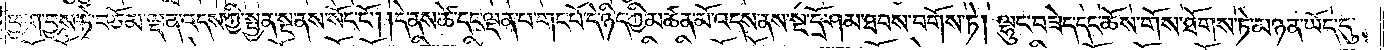ཕྱག་བྱས་ཏེ་བཅོམ་ལྡན་འདས་ཀྱི་སྤྱན་སྔ་ནས་སོང་ངོ༌། །དེ་ནས་ཚེ་དང་ལྡན་པ་གང་པོ་དེ་ཉིད་ཀྱི་མཚན་མོ་འདས་ནས་སྔ་དྲོ་ཤམ་ཐབས་བགོས་ཏེ། ལྷུང་བཟེད་དང་ཆོས་གོས་ཐོགས་ཏེ་མཉན་ཡོད་དུ་
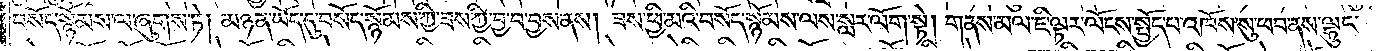བསོད་སྙོམས་ལ་ཞུགས་ཏེ། མཉན་ཡོད་དུ་བསོད་སྙོམས་ཀྱི་ཟས་ཀྱི་བྱ་བ་བྱས་ནས། ཟས་ཕྱི་མའི་བསོད་སྙོམས་ལས་སླར་ལོག་སྟེ། གནས་མལ་ཇི་ལྟར་ལོངས་སྤྱོད་པ་འཁོས་སུ་ཕབ་ནས་ལྷུང་
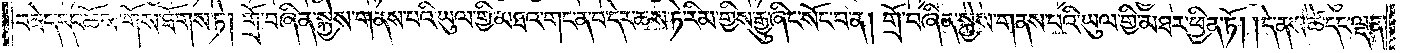བཟེད་དང་ཆོས་གོས་ཐོགས་ཏེ། གྲོ་བཞིན་སྐྱེས་གནས་པའི་ཡུལ་གྱི་མཐའ་གང་ན་བ་དེར་ཆས་ཏེ་རིམ་གྱིས་རྒྱུ་ཞིང་སོང་བ་ན། གྲོ་བཞིན་སྐྱེས་གནས་པའི་ཡུལ་གྱི་མཐར་ཕྱིན་ཏོ། དེ་ནས་ཚེ་དང་ལྡན་
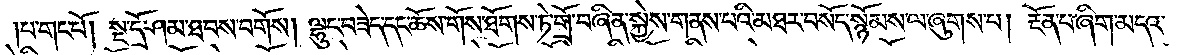པ་གང་པོ། སྔ་དྲོ་ཤམ་ཐབས་བགོས། ལྷུང་བཟེད་དང་ཆོས་གོས་ཐོགས་ཏེ་གྲོ་བཞིན་སྐྱེས་གནས་པའི་མཐར་བསོད་སྙོམས་ལ་ཞུགས་པ། རྔོན་པ་ཞིག་མདའ་
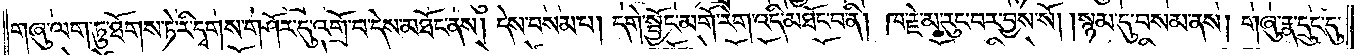གཞུ་ལག་ཏུ་ཐོགས་ཏེ་རི་དྭགས་གཤོར་དུ་འགྲོ་བ་དེས་མཐོང་ནས། དེས་བསམ་པ། དགེ་སྦྱོང་མགོ་རེག་འདི་མཐོང་བ་ནི། ཁ་རྗེ་མ་རུང་བར་བྱས་སོ། །སྙམ་དུ་བསམ་ནས། གཞུ་རྣ་དྲུང་དུ་
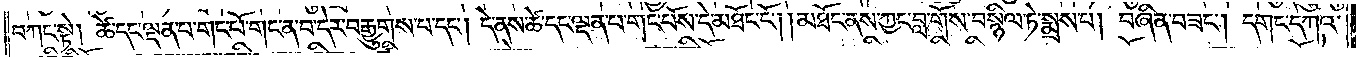བཀང་སྟེ། ཚེ་དང་ལྡན་པ་གང་པོ་གང་ན་བ་དེར་བརྒྱུགས་པ་དང༌། དེ་ནས་ཚེ་དང་ལྡན་པ་གང་པོས་དེ་མཐོང་ངོ༌། །མཐོང་ནས་ཀྱང་བླ་གོས་བསྙིལ་ཏེ་སྨྲས་པ། བཞིན་བཟང༌། དགང་དཀའ་
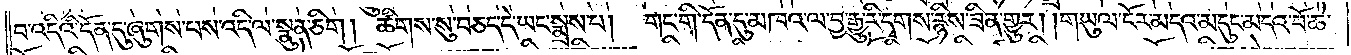བ་འདིའི་དོན་དུ་ཞུགས་པས་འདི་ལ་སྣུན་ཅིག །ཚིགས་སུ་བཅད་དེ་ཡང་སྨྲས་པ།   གང་གི་དོན་དུ་མཁའ་ལ་བྱ་རྒྱུ་རི་དྭགས་རྙིས་ཟིན་གྱུར། །གཡུལ་ངོར་མདའ་མདུང་མདའ་བོ་ཆེ་
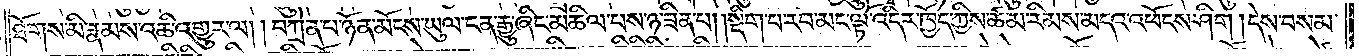ཐོགས་མི་རྣམས་འཆི་འགྱུར་ལ། །བཀྲེན་པ་ཉོན་མོངས་ཡུལ་ངན་རྒྱུ་ཞིང་མཆིལ་པས་ཉ་ཟིན་པ། །སྡིག་པ་རབ་མང་ལྟོ་འདིར་ཁྱོད་ཀྱིས་ཚམ་རིམས་མདའ་འཕོངས་ཤིག །དེས་བསམ་
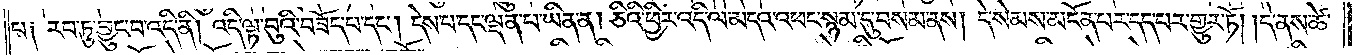པ༑ རབ་ཏུ་བྱུང་བ་འདི་ནི། འདི་ལྟ་བུའི་བཟོད་པ་དང༌། དེས་པ་དང་ལྡན་པ་ཡིན་ནོ། །ཅིའི་ཕྱིར་འདི་ལ་མདའ་འཕང་སྙམ་དུ་བསམ་ནས། དེ་སེམས་མངོན་པར་དད་པར་གྱུར་ཏེ། །དེ་ནས་ཚེ་
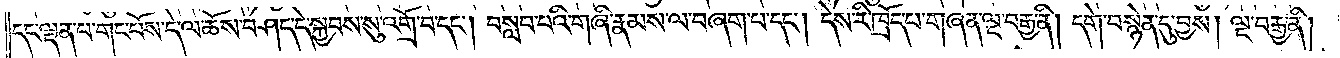དང་ལྡན་པ་གང་པོས་དེ་ལ་ཆོས་བཤད་དེ་སྐྱབས་སུ་འགྲོ་བ་དང༌། བསླབ་པའི་གཞི་རྣམས་ལ་བཞག་པ་དང༌། དེས་རི་ཁྲོད་པ་གཞན་ལྔ་བརྒྱ་ནི། དགེ་བསྙེན་དུ་བྱས། ལྔ་བརྒྱ་ནི།
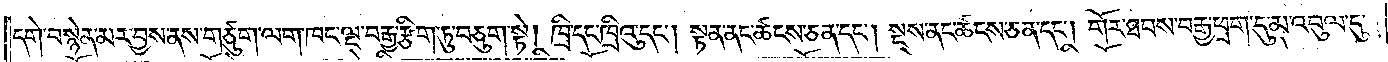དགེ་བསྙེན་མར་བྱས་ནས་གཙུག་ལག་ཁང་ལྔ་བརྒྱ་རྩིག་ཏུ་བཅུག་སྟེ། ཁྲི་དང་ཁྲིའུ་དང༌། སྟན་ནང་ཚངས་ཅན་དང༌། སྔས་ནང་ཚངས་ཅན་དང༌། གོར་ཐབས་བརྒྱ་ཕྲག་དུ་མ་འབུལ་དུ་
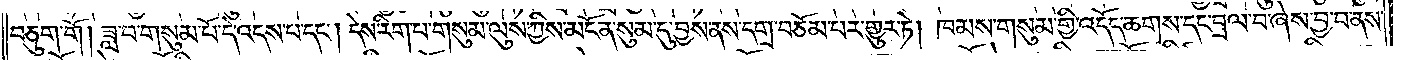བཅུག་གོ །ཟླ་བ་གསུམ་པོ་དེ་འདས་པ་དང༌། དེས་རིག་པ་གསུམ་ལུས་ཀྱིས་མངོན་སུམ་དུ་བྱས་ནས་དགྲ་བཅོམ་པར་གྱུར་ཏེ། ཁམས་གསུམ་གྱི་འདོད་ཆགས་དང་བྲལ་བ་ཞེས་བྱ་བ་ནས་
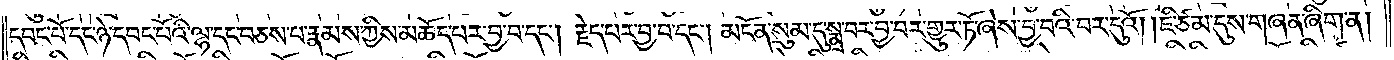དབང་པོ་དང་ཉེ་དབང་པོའི་ལྷ་དང་བཅས་པ་རྣམས་ཀྱིས་མཆོད་པར་བྱ་བ་དང༌། རྗེད་པར་བྱ་བ་དང༌། མངོན་སུམ་དུ་སྨྲ་བར་བྱ་བར་གྱུར་ཏོ་ཞེས་བྱ་བའི་བར་དུའོ། །ཇི་ཙམ་དུས་གཞན་ཞིག་ན།
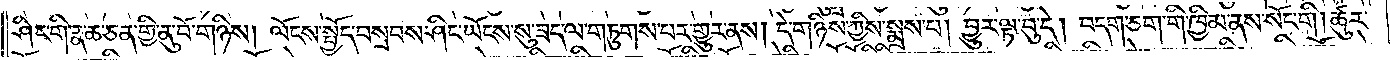ཤིང་གི་རྣ་ཆ་ཅན་གྱི་ནུ་བོ་གཉིས། ལོངས་སྤྱོད་བསྲབས་ཤིང་ཡོངས་སུ་ཟད་ལ་གཏུགས་པར་གྱུར་ནས། དེ་གཉིས་ཀྱིས་སྨྲས་པ། བྱུར་ལྟ་བུ་དེ། བདག་ཅག་གི་ཁྱིམ་ནས་སོང་གི། ཚུར་
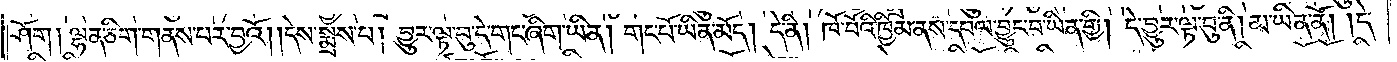ཤོག །ལྷན་ཅིག་གནས་པར་བྱའོ། །དེས་སྨྲས་པ། བྱུར་ལྟ་བུ་དེ་གང་ཞིག་ཡིན། གང་པོ་ཡིན་མོད། དེ་ནི། ཁོ་བོའི་ཁྱིམ་ནས་དཔལ་བྱུང་བ་ཡིན་གྱི། དེ་བྱུར་ལྟ་བུ་ནི། མ་ཡིན་ནོ། །དེ་
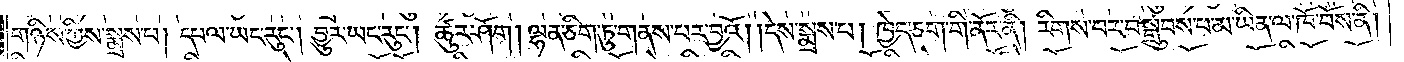གཉིས་ཀྱིས་སྨྲས་པ། དཔལ་ཡང་རུང༌། བྱུར་ཡང་རུང༌། ཚུར་ཤོག །ལྷན་ཅིག་ཏུ་གནས་པར་བྱའོ། །དེས་སྨྲས་པ། ཁྱེད་ཅག་གི་ནོར་ནི། རིགས་པར་བསྒྲུབས་པ་མ་ཡིན་ལ་ཁོ་བོས་ནི།
